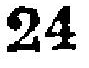24
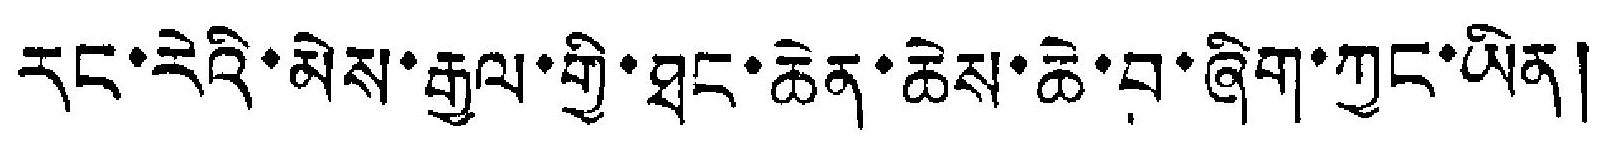རང་རེའི་མེས་རྒྱལ་གྱི་ཐང་ཆེན་ཆེས་ཆེ་བ་ཞིག་ཀྱང་ཡིན།
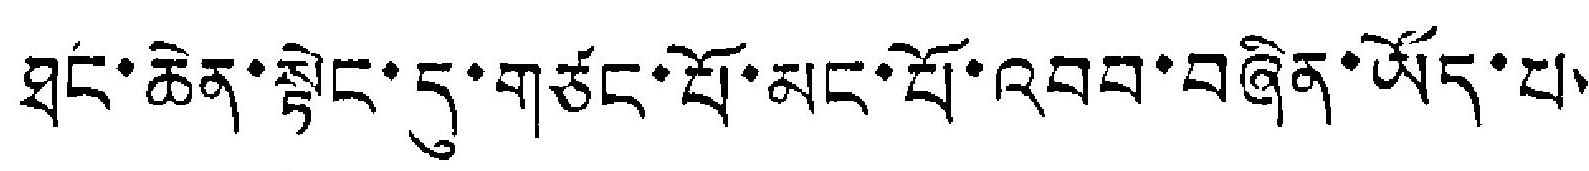ཐང་ཆེན་སྟེང་དུ་གཙང་པོ་མང་པོ་འབབ་བཞིན་ཡོད་པ་
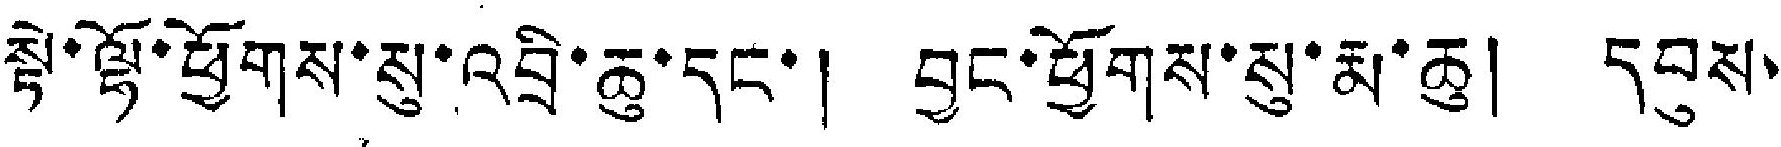སྟེ་ལྷོ་ཕྱོགས་སུ་འབྲི་ཆུ་དང་། བྱང་ཕྱོགས་སུ་རྨ་ཆུ། དབུས་
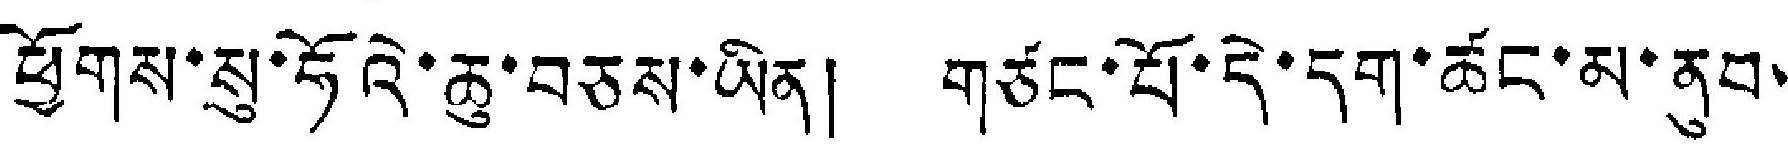ཕྱོགས་སུ་ཧོའེ་ཆུ་བཅས་ཡིན། གཙང་པོ་དེ་དག་ཚང་མ་ནུབ་
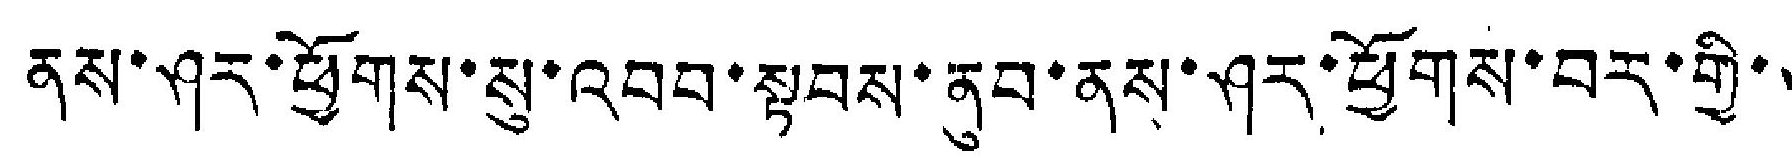ནས་ཤར་ཕྱོགས་སུ་འབབ་སྟབས་ནུབ་ནས་ཤར་ཕྱོགས་བར་གྱི་་
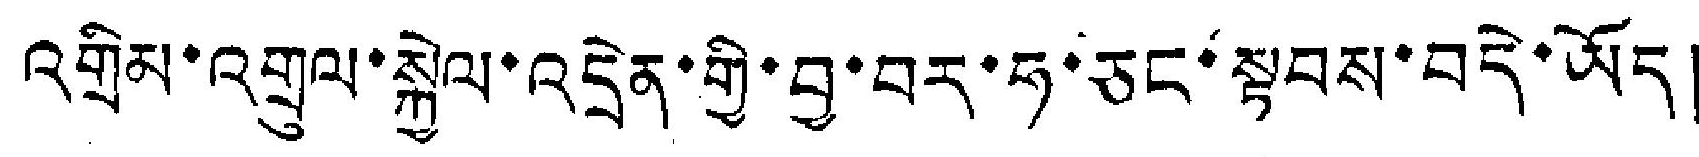འགྲིམ་འགྲུལ་སྐྱེལ་འདྲེན་གྱི་བྱ་བར་ཧ་ཅང་སྟབས་བདེ་ཡོད།
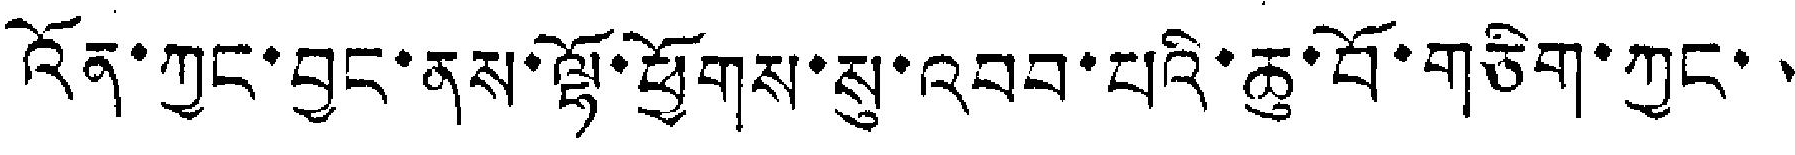འོན་ཀྱང་བྱང་ནས་ལྷོ་ཕྱོགས་སུ་འབབ་པའི་ཆུ་བོ་གཅིག་ཀྱང་་
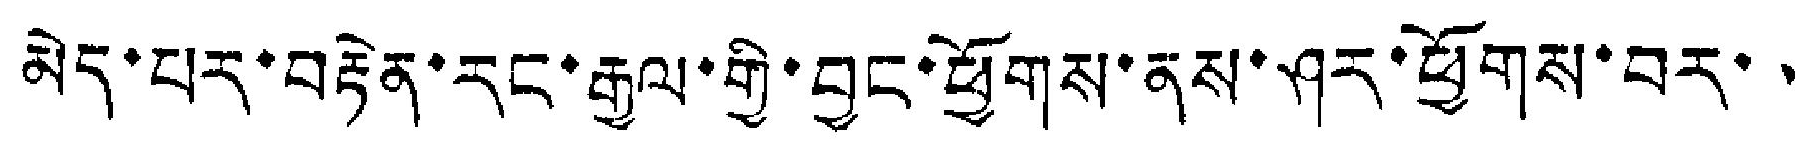མེད་པར་བརྟེན་རང་རྒྱལ་གྱི་བྱང་ཕྱོགས་ནས་ཤར་ཕྱོགས་བར་་
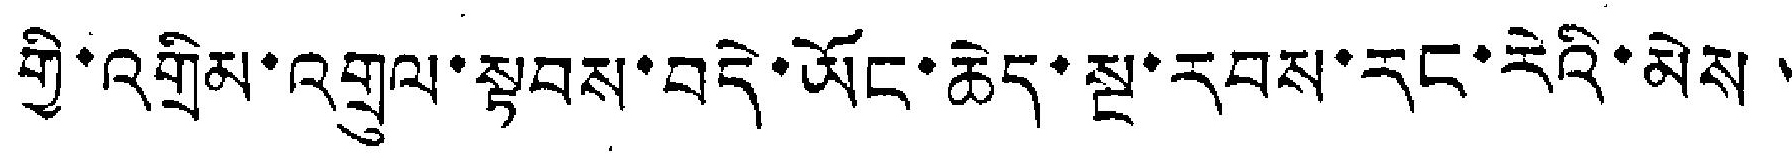གྱི་འགྲིམ་འགྲུལ་སྟབས་བདེ་ཡོང་ཆེད་སྔ་རབས་རང་རེའི་མེས་
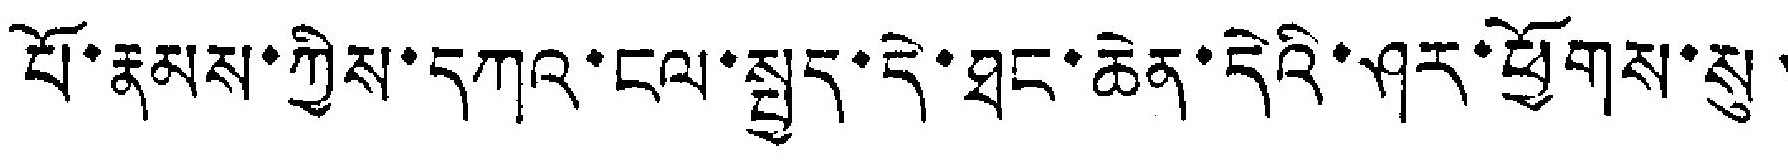པོ་རྣམས་ཀྱིས་དཀའ་ངལ་སྤྱད་དེ་ཐང་ཆེན་དེའི་ཤར་ཕྱོགས་སུ་
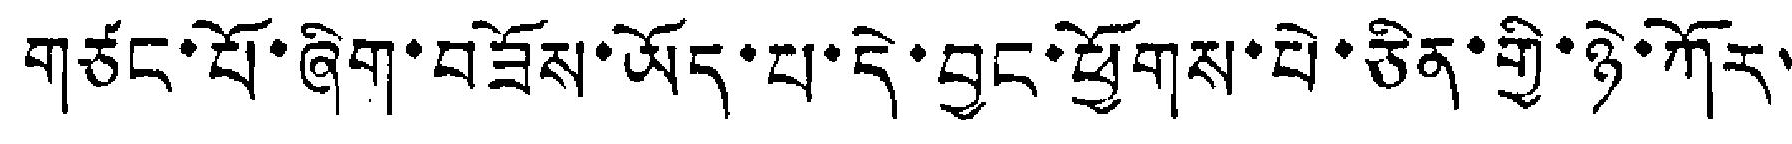གཙང་པོ་ཞིག་བཟོས་ཡོད་པ་དེ་བྱང་ཕྱོགས་པེ་ཅིན་གྱི་ཉེ་ཀོར་
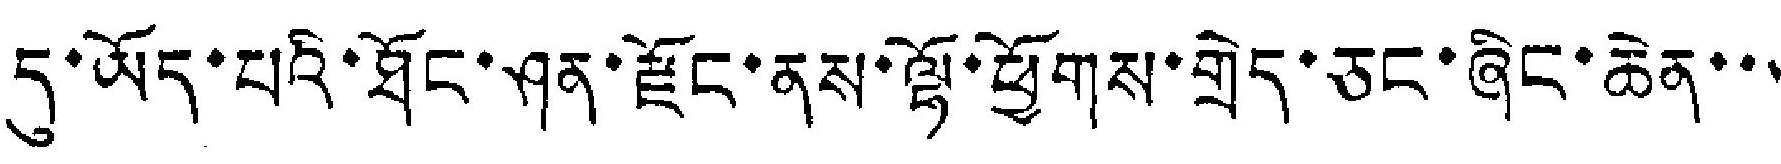དུ་ཡོད་པའི་ཐོང་ཤན་རྫོང་ནས་ལྷོ་ཕྱོགས་གྲེད་ཅང་ཞིང་ཆེན་་་
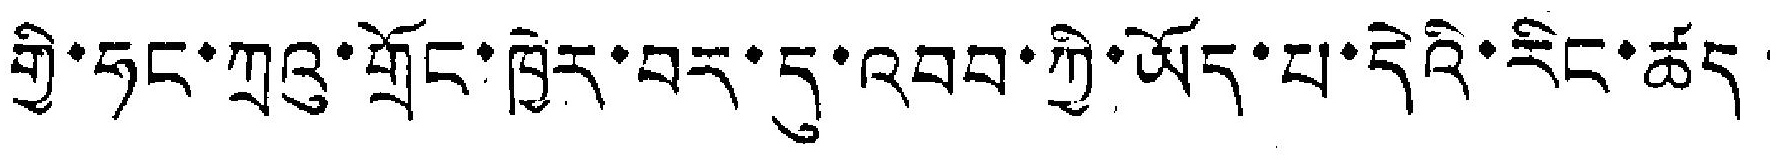གྱི་ཧང་ཀྲའུ་གྲོང་ཁྱེར་བར་དུ་འབབ་ཀྱི་ཡོད་པ་དེའི་རིང་ཚད་
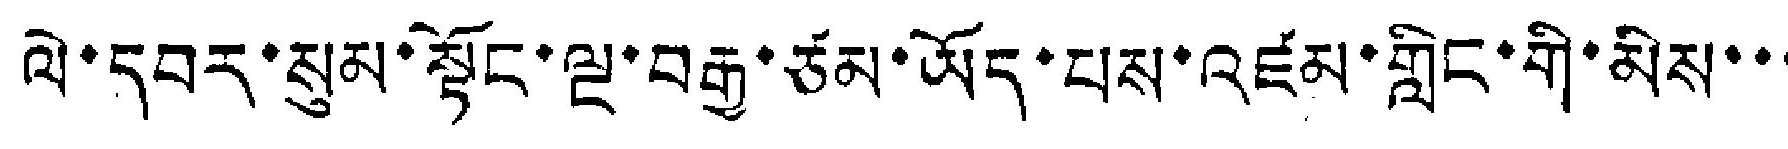ལེ་དབར་སུམ་སྟོང་ལྔ་བརྒྱ་ཙམ་ཡོད་པས་འཛམ་གླིང་གི་མིས་་་
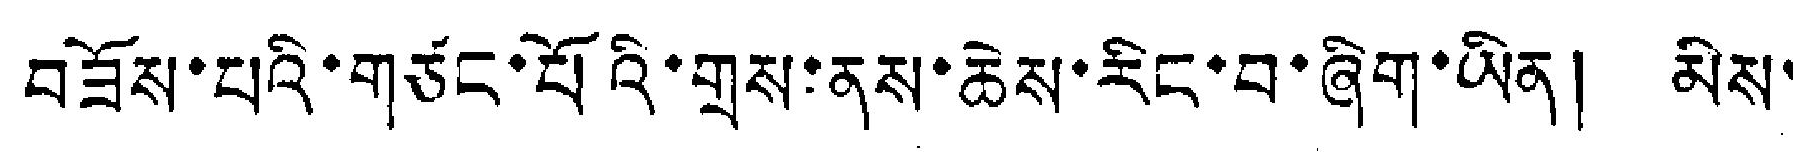བཟོས་པའི་གཅང་པོའི་གྲས་ནས་ཆེས་རིང་བ་ཞིག་ཡིན། མེས་
